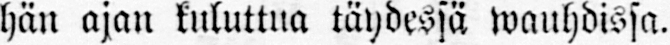hän ajan kuluttua täydessä wauhdissa.
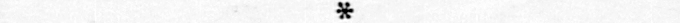Lukijoita ehkä huwittanee kuulla, mi-
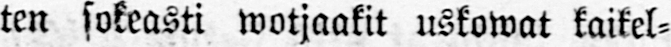ten sokeasti wotjaakit uskowat kaikel-
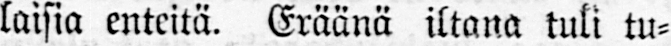laisia enteitä. Eräänä iltana tuli tu-
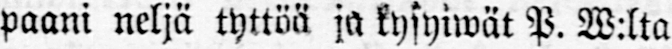paani neljä tyttöä ja kysyiwät P. W:lta
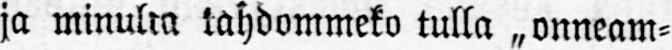ja minulta tahdommeko tulla „onneam-
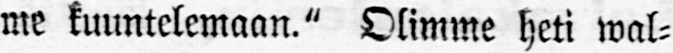me kuuntelemaan." Olimme heti wal-
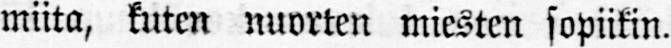miita, kuten nuorten miesten sopiikin.
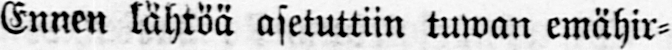Ennen lähtöä asetuttiin tuwan emähir-
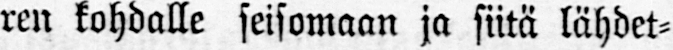ren kohdalle seisomaan ja siitä lähdet-
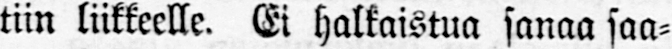tiin liikkeelle. Ei halkaistua sanaa saa-
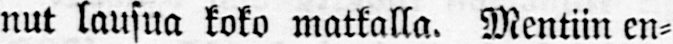nut lausua koko matkalla. Mentiin en-
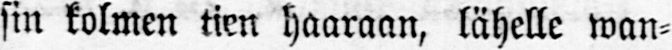sin kolmen tien haaraan, lähelle wan-
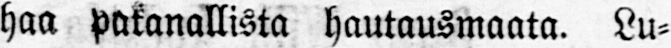haa pakanallista hautausmaata. Lu-
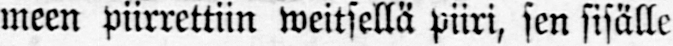meen piirrettiin weitsellä piiri, sen sisälle
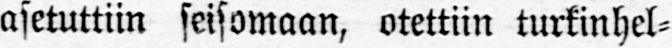asetuttiin seisomaan, otettiin turkinhel-
